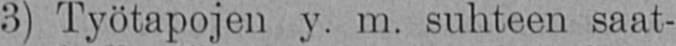3) Työtapojen y. m. suhteen saat-
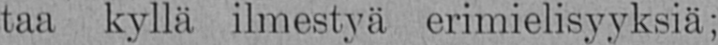taa kyllä ilmestyä erimielisyyksiä;
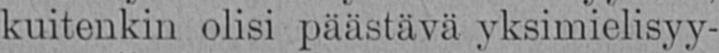kuitenkin olisi päästävä yksimielisyy-
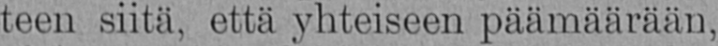teen siitä, että yhteiseen päämäärään,
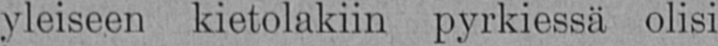yleiseen kietolakiin pyrkiessä olisi
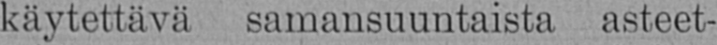käytettävä samansuuntaista asteet-
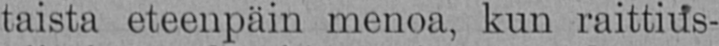taista eteenpäin menoa, kun raittius-
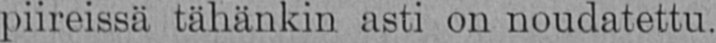piireissä tähänkin asti on noudatettu.
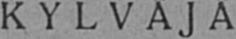KYLVÄJÄ
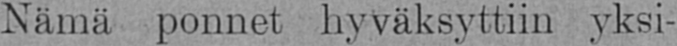Nämä ponnet hyväksyttiin yksi-
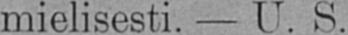mielisesti. — U. S.
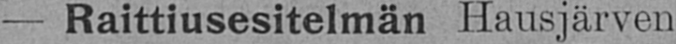— Raittiusesitelmän Hausjärven
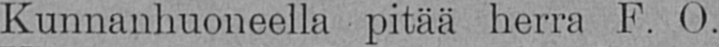Kunnanhuoneella pitää herra F. O.
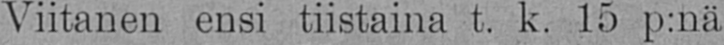Viitanen ensi tiistaina t. k. 15 p:nä
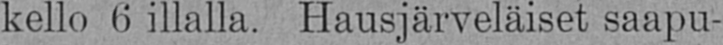kello 6 illalla. Hausjärveläiset saapu-
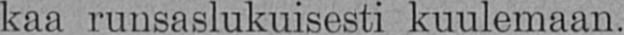kaa runsaslukuisesti kuulemaan.
